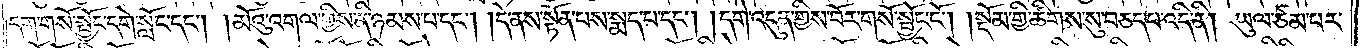དག་གསོ་སྦྱོང་དགེ་སློང་དང༌། མོའུ་འགལ་གྱིས་ནི་ཉམས་པ་དང༌། །དེ་ནས་སྟོན་པས་སྨད་པ་དང༌། །དགེ་འདུན་གྱིས་བོར་གསོ་སྦྱོང་ངོ༌། །སྡོམ་གྱི་ཚིགས་སུ་བཅད་པ་འདི་ནི། ཡུལ་ཙམ་པར་
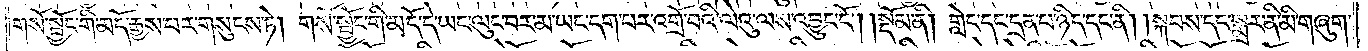གསོ་སྦྱོང་གི་མདོ་རྒྱས་པར་གསུངས་ཏེ། གསོ་སྦྱོང་གི་མདོ་དེ་ཡང་ལུང་བར་མ་ཡང་དག་པར་འགྲོ་བའི་ལེའུ་ལས་འབྱུང་ངོ༌། །སྡོམ་ནི། གླེང་དང་དྲན་པ་ཉིད་དང་ནི། །སྐབས་དང་སྨྲར་ནི་མི་གཞུག་
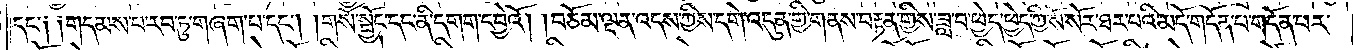དང༌། །གདམས་པ་རབ་ཏུ་གཞག་པ་དང༌། །གསོ་སྦྱོང་དང་ནི་དགག་དབྱེའོ། །བཅོམ་ལྡན་འདས་ཀྱིས་དགེ་འདུན་གྱི་གནས་བརྟན་གྱིས་ཟླ་བ་ཕྱེད་ཕྱེད་ཀྱི་སོ་སོར་ཐར་པའི་མདོ་གདོན་པ་གདོན་པར་
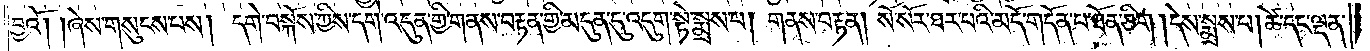བྱའོ། །ཞེས་གསུངས་པས། དགེ་བསྐོས་ཀྱིས་དགེ་འདུན་གྱི་གནས་བརྟན་གྱི་མདུན་དུ་འདུག་སྟེ་སྨྲས་པ། གནས་བརྟན། སོ་སོར་ཐར་པའི་མདོ་གདོན་པ་ཐོན་ཅིག །དེས་སྨྲས་པ། ཚེ་དང་ལྡན་
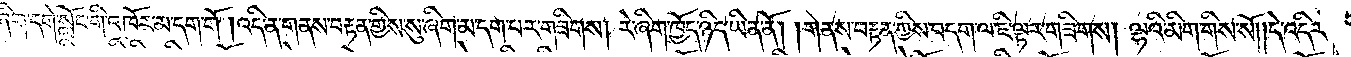ཞིག་དགེ་སློང་གི་འཁོར་མ་དག་གོ །འདི་ན་གནས་བརྟན་གྱིས་སུ་ཞིག་མ་དག་པར་གཟིགས། རེ་ཞིག་ཁྱོད་ཉིད་ཡིན་ནོ། །གནས་བརྟན་གྱིས་བདག་ལ་ཇི་ལྟར་གཟིགས། ལྷའི་མིག་གིས་སོ་།དེ་འདིར་
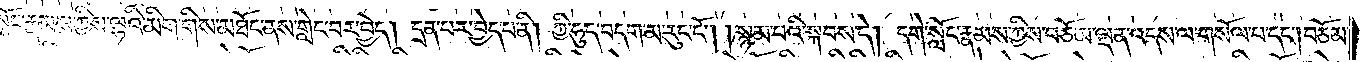སློང་རྣམས་ཀྱིས་ལྷའི་མིག་གིས་མཐོང་ནས་གླེང་བར་བྱེད། དྲན་པར་བྱེད་པ་ནི། ཀྱི་ཧུད་བདག་མ་རུང་ངོ༌། །སྙམ་པའི་སྐབས་དེ། དགེ་སློང་རྣམས་ཀྱིས་བཅོམ་ལྡན་འདས་ལ་གསོལ་བ་དང༌། བཅོམ་
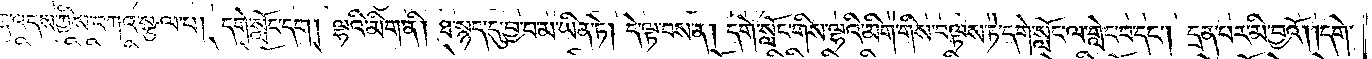ལྡན་འདས་ཀྱིས་བཀའ་སྩལ་པ། དགེ་སློང་དག །ལྷའི་མིག་ནི། ཐ་སྙད་དུ་བྱ་བ་མ་ཡིན་ཏེ། དེ་ལྟ་བས་ན། དགེ་སློང་གིས་ལྷའི་མིག་གིས་བལྟས་ཏེ་དགེ་སློང་ལ་གླེང་བ་དང༌། དྲན་པར་མི་བྱའོ། །དགེ་
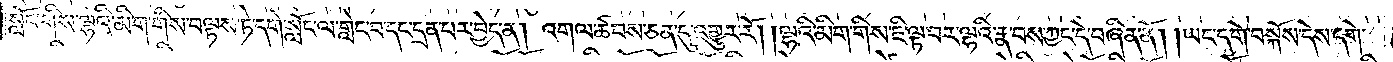སློང་གིས་ལྷའི་མིག་གིས་བལྟས་ཏེ་དགེ་སློང་ལ་གླེང་བ་དང་དྲན་པར་བྱེད་ན། འགལ་ཚབས་ཅན་དུ་འགྱུར་རོ། །ལྷའི་མིག་གིས་ཇི་ལྟ་བར་ལྷའི་རྣ་བས་ཀྱང་དེ་བཞིན་ནོ། །ཡང་དགེ་བསྐོས་དེས་དགེ་
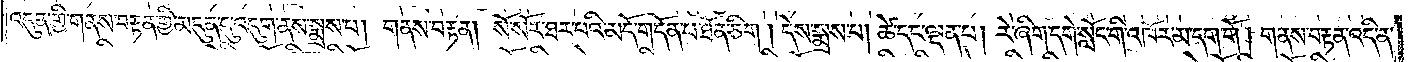འདུན་གྱི་གནས་བརྟན་གྱི་མདུན་དུ་འདུག་ནས་སྨྲས་པ། གནས་བརྟན། སོ་སོར་ཐར་པའི་མདོ་གདོན་པ་ཐོན་ཅིག །དེས་སྨྲས་པ། ཚེ་དང་ལྡན་པ། རེ་ཞིག་དགེ་སློང་གི་འཁོར་མ་དག་གོ །གནས་བརྟན་འདི་ན་
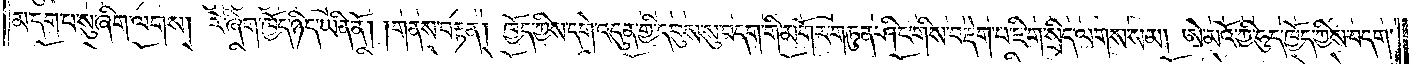མ་དག་པ་སུ་ཞིག་ལགས་།རེ་ཞིག་ཁྱོད་ཉིད་ཡིན་ནོ། །གནས་བརྟན། ཁྱོད་ཀྱིས་དགེ་འདུན་གྱི་དབུས་སུ་བདག་གི་མགོར་གཏུན་ཤིང་གིས་བརྡེག་པ་ཇི་ག་སྲིད་ལགས་སམ། ཨེ་མའོ་ཀྱི་ཧུད་ཁྱོད་ཀྱིས་བདག་
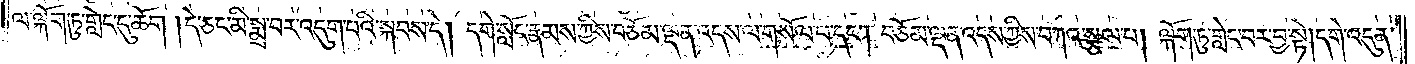ལ་ལྐོག་ཏུ་གླེང་དུ་ཆོག །དེ་ཅང་མི་སྨྲ་བར་འདུག་པའི་སྐབས་དེ། དགེ་སློང་རྣམས་ཀྱིས་བཅོམ་ལྡན་འདས་ལ་གསོལ་པ་དང༌། བཅོམ་ལྡན་འདས་ཀྱིས་བཀའ་སྩལ་པ། ལྐོག་ཏུ་གླེང་བར་བྱ་སྟེ། དགེ་འདུན་
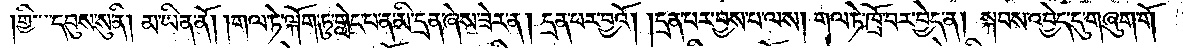གྱི་དབུས་སུ་ནི། མ་ཡིན་ནོ། །གལ་ཏེ་ལྐོག་ཏུ་གླེང་པ་ན་མི་དྲན་ཞེས་ཟེར་ན། དྲན་པར་བྱའོ། །དྲན་པར་བྱས་པ་ལས། གལ་ཏེ་ཁྲོ་བར་བྱེད་ན། སྐབས་འབྱེད་དུ་གཞུག་གོ །
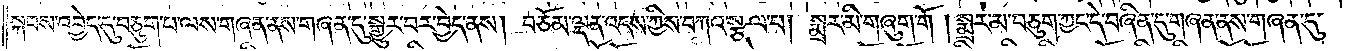སྐབས་འབྱེད་དུ་བཅུག་པ་ལས་གཞན་ནས་གཞན་དུ་སྒྱུར་བར་བྱེད་ནས། བཅོམ་ལྡན་འདས་ཀྱིས་བཀའ་སྩལ་པ། སྨྲར་མི་གཞུག་གོ །སྨྲར་མ་བཅུག་ཀྱང་དེ་བཞིན་དུ་གཞན་ནས་གཞན་དུ་
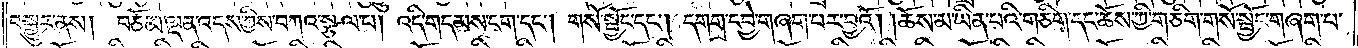བསྒྱུར་ནས། བཅོམ་ལྡན་འདས་ཀྱིས་བཀའ་སྩལ་པ། འདི་གདམས་ངག་དང༌། གསོ་སྦྱོང་དང༌། དགག་དབྱེ་གཞག་པར་བྱའོ། །ཆོས་མ་ཡིན་པའི་གཅིག་དང་ཆོས་ཀྱི་གཅིག་གསོ་སྦྱོང་གཞག་པ་
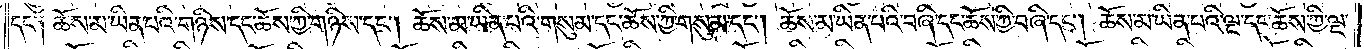དང༌། ཆོས་མ་ཡིན་པའི་གཉིས་དང་ཆོས་ཀྱི་གཉིས་དང༌། ཆོས་མ་ཡིན་པའི་གསུམ་དང་ཆོས་ཀྱི་གསུམ་དང༌། ཆོས་མ་ཡིན་པའི་བཞི་དང་ཆོས་ཀྱི་བཞི་དང༌། ཆོས་མ་ཡིན་པའི་ལྔ་དང་ཆོས་ཀྱི་ལྔ་
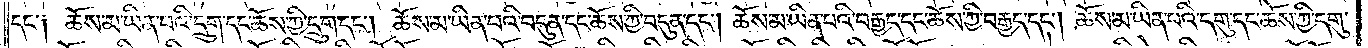དང༌། ཆོས་མ་ཡིན་པའི་དྲུག་དང་ཆོས་ཀྱི་དྲུག་དང༌། ཆོས་མ་ཡིན་པའི་བདུན་དང་ཆོས་ཀྱི་བདུན་དང༌། ཆོས་མ་ཡིན་པའི་བརྒྱད་དང་ཆོས་ཀྱི་བརྒྱད་དང༌། ཆོས་མ་ཡིན་པའི་དགུ་དང་ཆོས་ཀྱི་དགུ་
